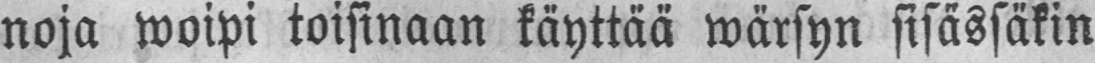noja woipi toisinaan käyttää wärsyn sisässäkin
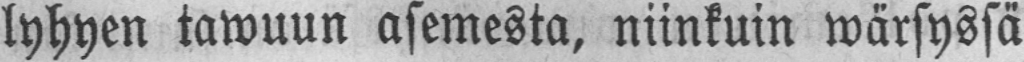lyhyen tawuun asemesta, niinkuin wärsyssä
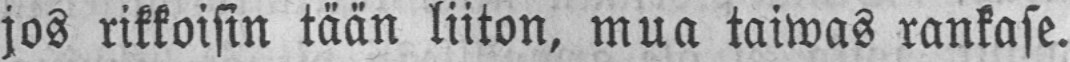jos rikkoisin tään liiton, mua taiwas rankase.
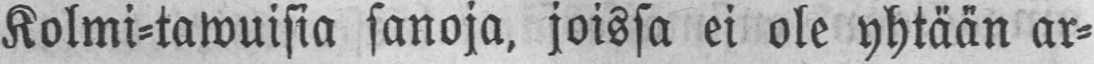Kolmi-tawuisia sanoja, joissa ei ole yhtään ar-
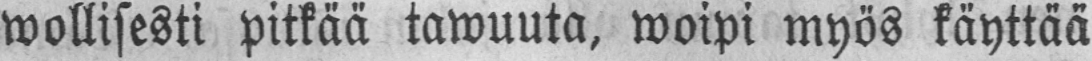wollisesti pitkää tawuuta, woipi myös käyttää
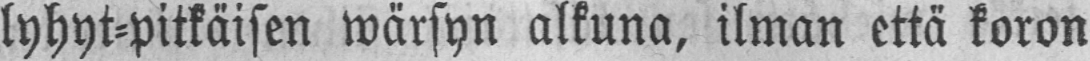lyhyt-pitkäisen wärsyn alkuna, ilman että koron
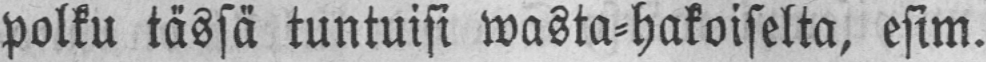polku tässä tuntuisi wasta-hakoiselta, esim.
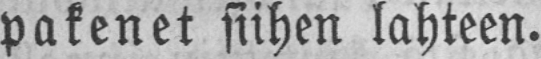pakenet siihen lahteen,
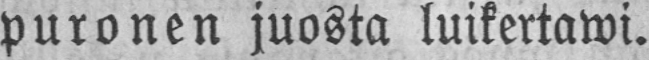puronen juosta luikertawi.
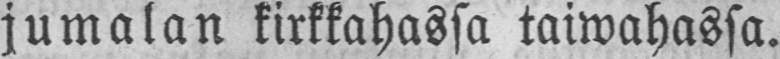jumalan kirkkahassa taiwahassa.
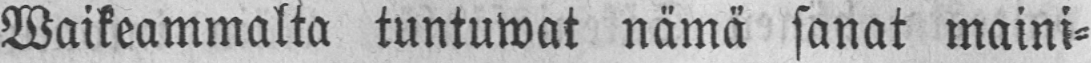Waikeammalta tuntuwat nämä sanat maini-
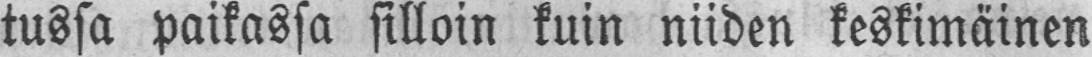tussa paikassa silloin kuin niiden keskimäinen
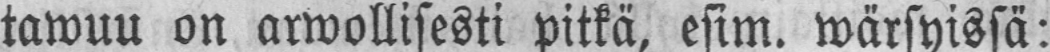tawuu on arwollisesti pitkä, esim. wärsyissä:
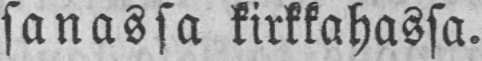sanassa kirkkahassa.
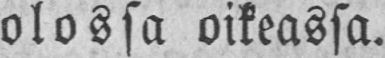olossa oikeassa,
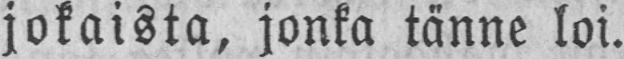jokaista, jonka tänne loi.
